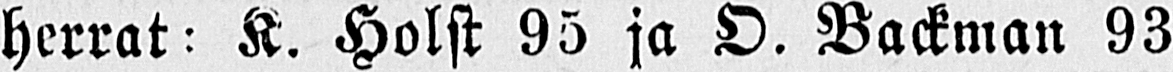herrat: K. Holst 95 ja O. Backman 93
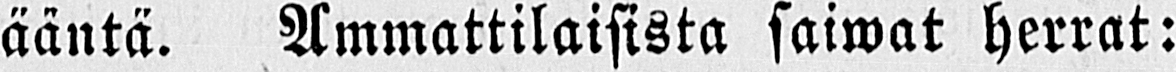ääntä. Ammattilaisista saiwat herrat:
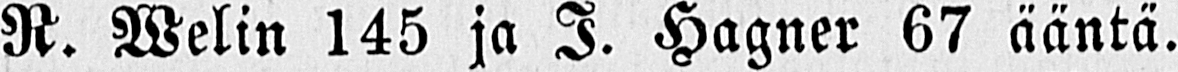R. Welin 145 ja I. Hagner 67 ääntä.
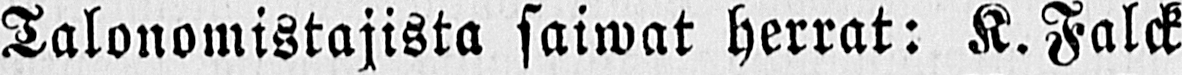Talonomistajista saiwat herrat: K. Falck
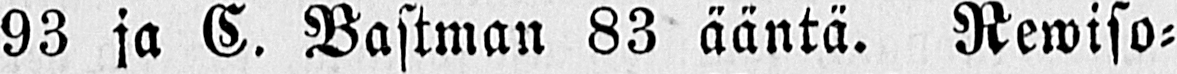93 ja C. Bastman 83 ääntä. Rewiso-
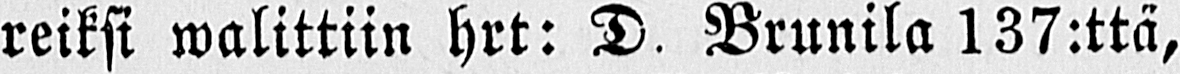reiksi walittiin hrt: D. Brunila 137:ttä,
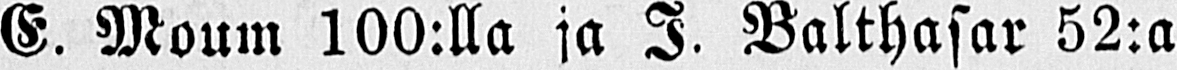E. Moum 100:lla ja I. Balthasar 52:a
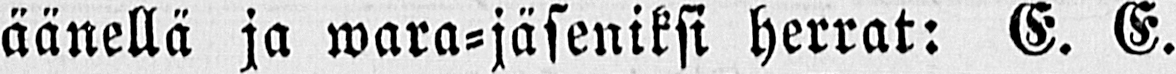äänellä ja wara-jäseniksi herrat: E. E.
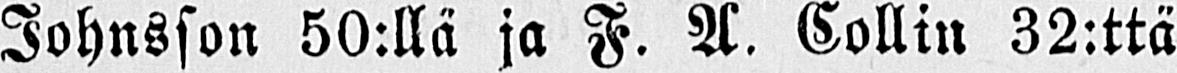Johnsson 50:llä ja F. A. Collin 32:ttä
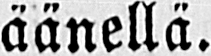äänellä.
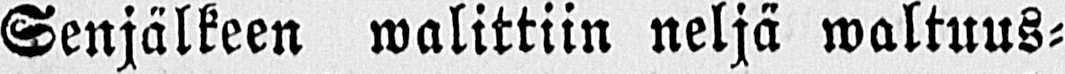Senjälkeen walittiin neljä waltuus-
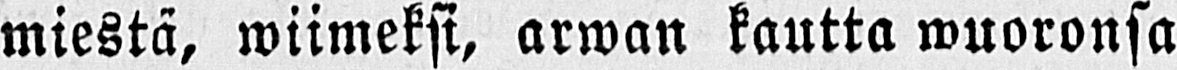miestä, wiimeksi, arwan kautta wuoronsa
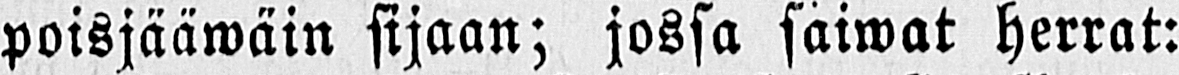poisjääwäin sijaan; jossa saiwat herrat:
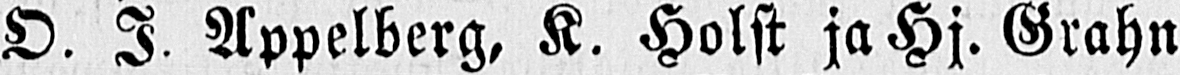O. I. Appelberg, K. Holst ja Hj. Grahn
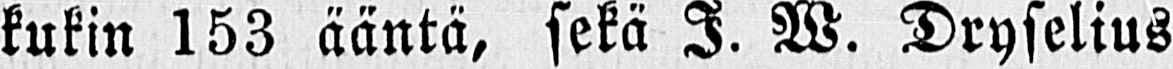kukin 153 ääntä, sekä I. W. Dryselius
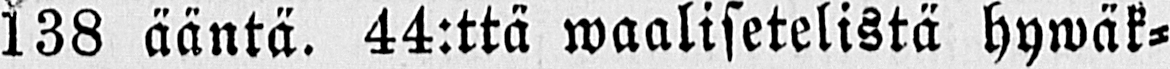138 ääntä. 44:ttä waalisetelistä hywäk-
